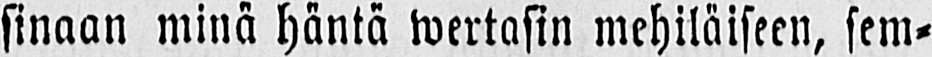sinaan minä häntä wertasin mehiläiseen, sem-
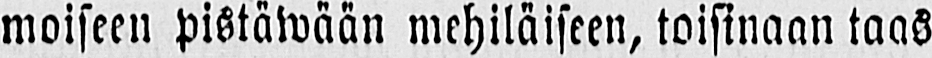moiseen pistäwään mehiläiseen, toisinaan taas
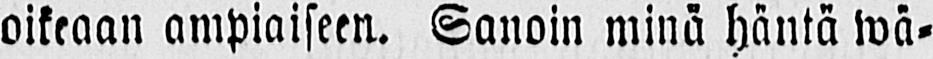oikeaan ampiaiseen. Sanoin minä häntä wä-
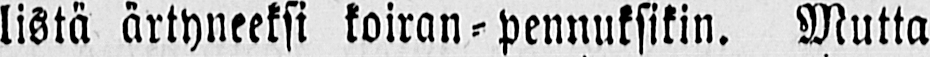listä ärtyneeksi koiran-pennuksikin. Mutta
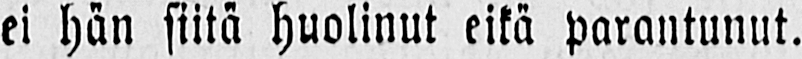ei hän siitä huolinut eikä parantunut.
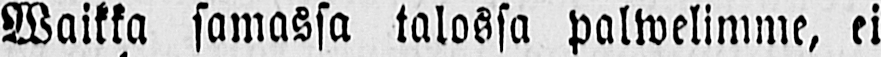Waikka samassa talossa palwelimme, ei
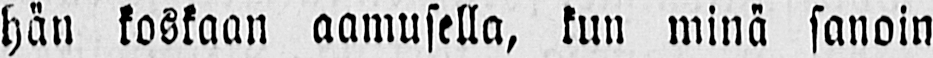hän koskaan aamusella, kun minä sanoin
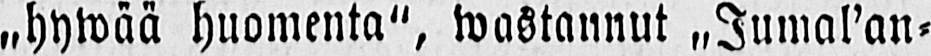„hywää huomenta", wastannut „Jumal'an-
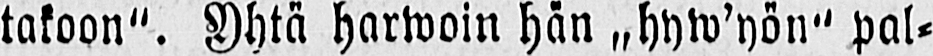takoon". Yhtä harwoin hän „hyw'yön" pal-
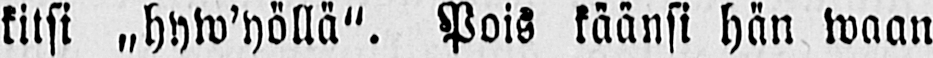kitsi „hyw'yöllä". Pois käänsi hän waan
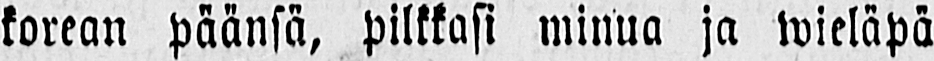korean päänsä, pilkkasi minua ja wieläpä
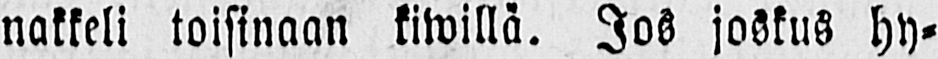nakkeli toisinaan kiwillä. Jos joskus hy-
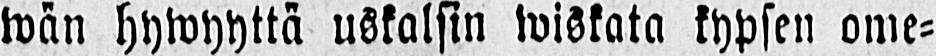wän hywyyttä uskalsin wiskata kypsen ome-
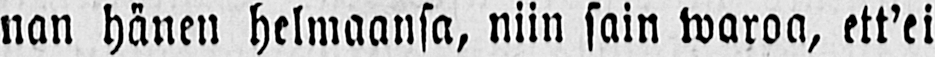nan hänen helmaansa, niin sain waroa, ett'ei
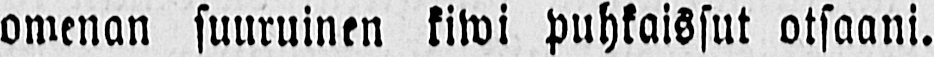omenan suuruinen kiwi puhkaissut otsaani.
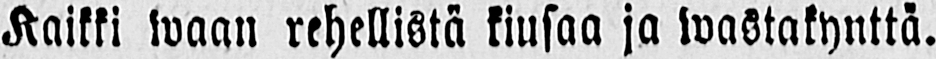Kaikki waan rehellistä kiusaa ja wastakynttä.
